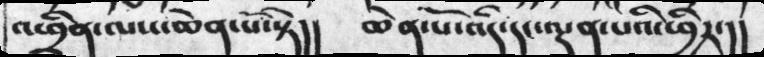འཕྲིན་ལས་ཆེན་པོ་སྟེ།།  ཆེན་པོ་འདི་དང་ལྡན་པའི་ཕྱིར་།།
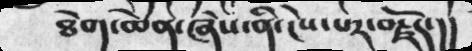ཐེག་ཆེན་ཞེས་ནི་ངེས་པར་བརྗོད་།།
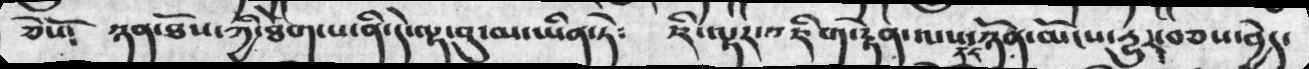ཅེསོ༴  ཉན་ཐོས་ཀྱི་ཐེག་པ་ནི་དེ་ལྟ་བུ་མ་ཡིན་ཏེ༴   ཇི་ལྟར་འཇིག་རྟེན་ལས་དང་ཉོན་མོངས་དྱུར་བཅས་བྱེད་
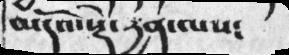མདོའ་སྡེ་རྱན་ལས༴
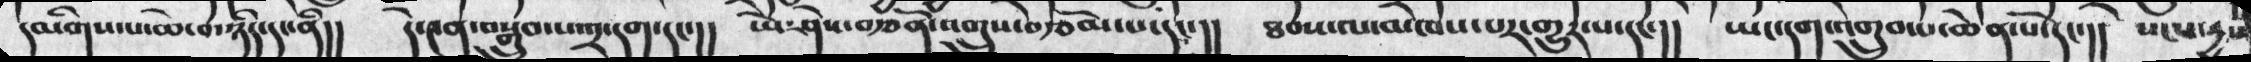དམིགས་པ་ཆེ་བ་ཉིད་དང་ནི།།  དེ་༤ན་བསྒྲུབ་པ་༢་དག་དང་།།  ཡེ་ཤེས་བརྩོན་འགྲུས་བརྩོམ་པ་དང་།།  ཐབས་ལ་མཁས་པར་གྱུར་པ་དང་།།  ཡང་དག་འགྲུབ་པ་ཆེན་པོ་དང་།།  སངས་དྱས
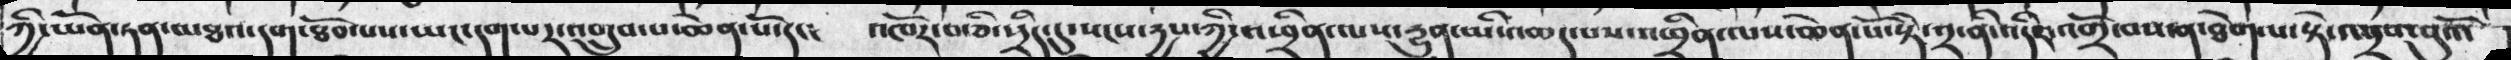ཀྱི་ཡོན་ཏན་མཐའ་དག་ཐོབ་པས་ཡང་དག་པར་འགྲུབ་པ་ཆེན་པོ་དང༴  འཁོར་བ་ཅི་སྲིད་དུ་སངས་དྱས་ཀྱི་འཕྲིན་ལས་རྱུན་མི་འཆད་པས་འཕྲིན་ལས་ཆེན་པོ་སྟེ་༢་ནི་འདིར་འགྲོ་བས་ན་ཐེག་པ་སྟེ་འབྲས་བུའོ་
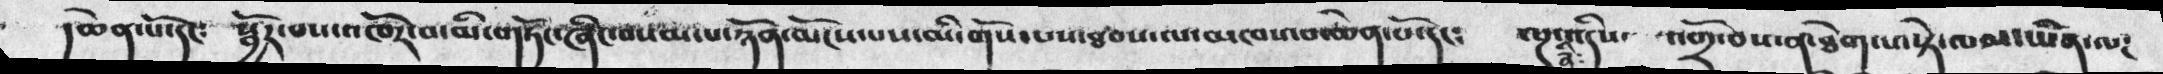།ཆེན་པོ་དང༴  སྦྱོར་བས་འཁོར་བ་མི་གཏོང་ཞིང་བསམ་པ་ཉོན་མོངས་པས་མི་གོས་པས་ཐབས་ལ་མཁས་བ་ཆེན་པོ་དང༴   ལྔ་ནི༴འདིས་  འགྲོ་བས་ན་ཐེག་པ་སྟེ་ལམ་ཡིན་ལ༴
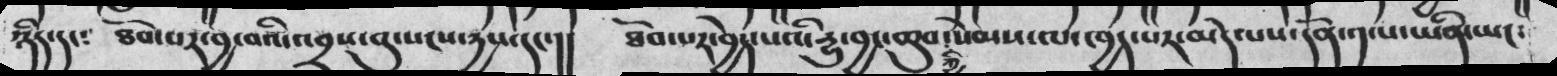ཉིད་དང༴  ཐོབ་པར་བྱ་བའི་འབྲས་བུ་སངས་དྱས་དང་།།   ཐོབ་པར་བྱེད་པའི་དྱུ་བྱང་ཆུབ་ཀྱི་སེམས་ལ་ཁྱད་པར་མེད་པས་དོན་༡་པ་ཡིན་ཡང༴
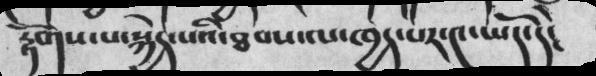རྟོགས་པ་སྐྱེད་པའི་ཐབས་ལ་ཁྱད་པར་༤་ཡོད་དེ༴
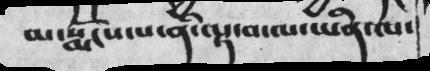མ་སྨོངས་པ་ནི་ལྟ་བ་ལ་ཡིན་ལ་
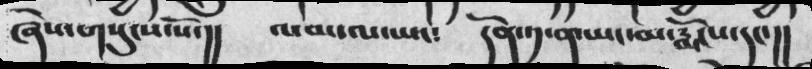ཞེས་གསུངས་སོ་།།  ལམ་ལ་ཡང༴  དོན་༡་ན་ཡང་མ་རྨོངས་དང་།།
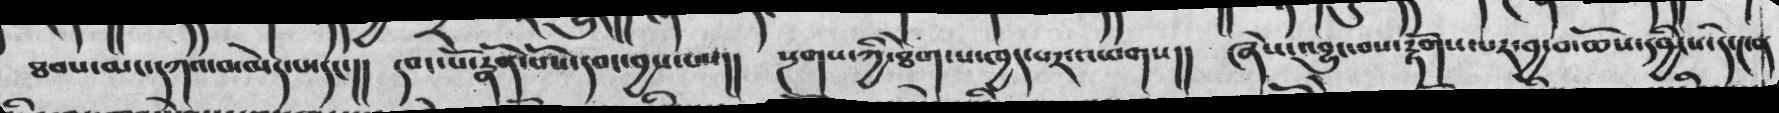ཐབས་མང་དཀའ་བ་མེད་པ་དང་།།  དབང་པོ་རྣོན་པོས་དབང་བྱས་པས།།  སྔགས་ཀྱི་ཐེག་པ་ཁྱད་ཕར་འཕགས།།  ཞེས་འབྱུང་བས་རྟོགས་པར་བྱ་བ་ཆོས་དབྱིངས་དེ་༤ན
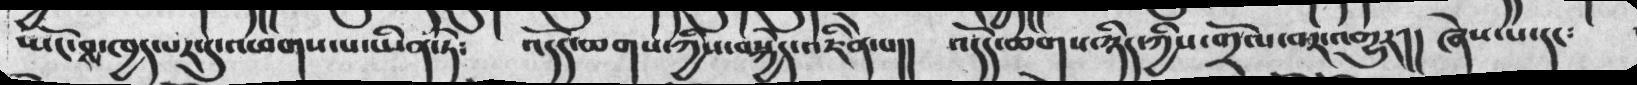སྤོང་བས་ཁྱད་པར་དུ་འཕགས་པ་ཡིན་ཏེ༴   འདོད་ཆགས་ཀྱིས་བསྐྱེད་འཇིེན་པ།།  འདོད་ཆགས་ཉིད་ཀྱིས་གྲོལ་བར་འགྱུར།།  ཞེསཔ་དང༴
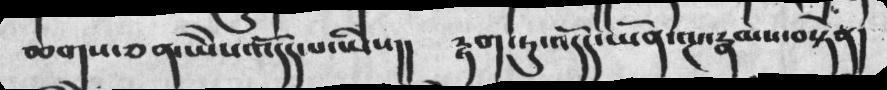ཆགས་ཅན་ཡཻས་འདོད་པ་ཡིས།།  རྟག་ཏུ་འདོད་ཡོན་ལྔ་རྣམས་བསྟེན།
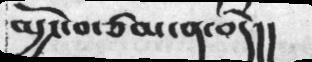མྱོང་བ་ཙམ་ན་བདེ།།
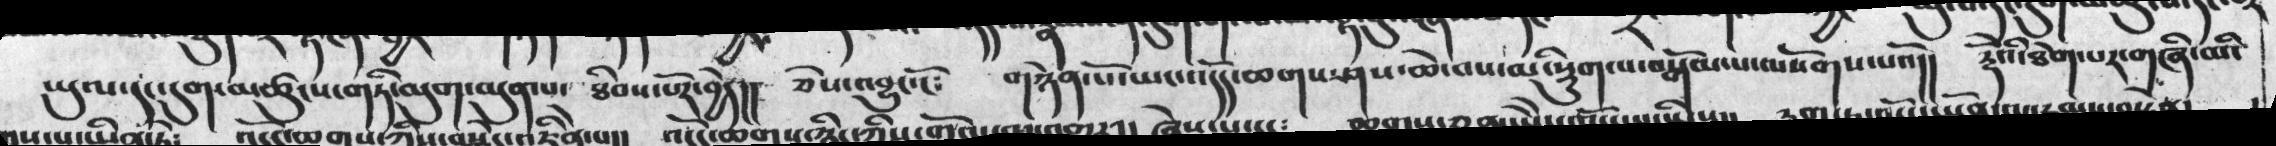ཡུལ་དང་དུག་མཚུངས་གཏི་མུག་མུན་པ་ཐིབས་པོར་བྱེད།།  ཅེས་འབྱུང་ངོ༴   གཉེན་པོ་ཡང་འདོད་ཆགས་ཤས་ཆེ་བས་མི་སྡུག་པ་བསྒོམ་པ་ལསོགས་པའོ།།  རྡོེའི་ཐེག་པར་གཞི་མི་
